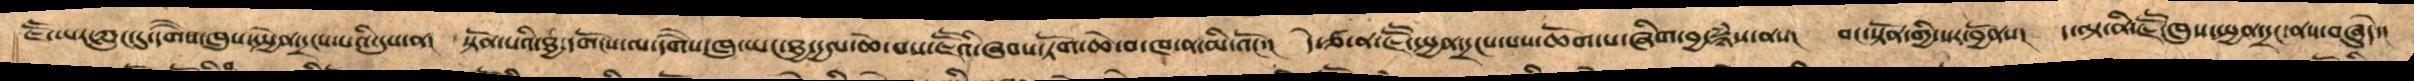ཇཽ་ཡར་ཀླུང་དུ་དགཻས་ཁུས་སྤྱེན་དྲངས་པའི་དུས་ན། སྟོན་པའི་ཐྱ་དགོངས་ལ་དགཻས་ཁུ་ཡང་ཐྱ་དྱལ་ཆེ་བས་ཇཽའི་ཞབས་ཏོག་ཆེ་བ་ཁ་ན་མི་འོང་།   དེ་ཙ་ན་ཇཽ་སྤྱན་དྲངས་པས་ཆོག་པ་ཞིག་བྱ་སྙཾས་ནས།   བང་སྟོན་གྱི་སར་བྱོནས།    ད་ལྟ་ནི་ཇཽ་ཁུས་སྤྱན་དྲངས་ནས་བཞུདེ་།
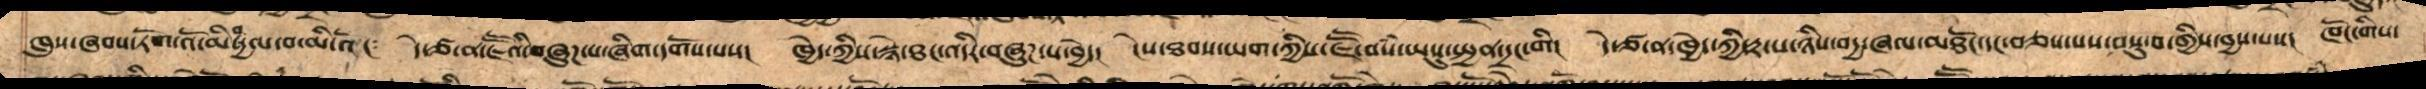ཁུས་ཞབས་ཏོག་འོ་མིན་དྱལ་བ་མི་འོང་  དེ་ཙ་ན་ཇཽའི་བཞུཌ་ས་ཞིག་དགོས་པས། ཁྱེད་ཀྱིས་སྙེ་ཐང་འདིར་བཞུཌ་ས་བྱེད།  ངེས་ཐབས་ཡག་ཀྱིས་ཇཽ་བསཾ་ཡསུ་སྤྱན་དྲང་གི།  དེ་ཙ་ན་ཁྱེད་ཀྱི་རྟ་པ་ཉིས་བདྱ་ཞལ་མཐོང་དང་བཅས་པས་བསུ་བ་གྱིས་བྱས་པས། ཁོང་གིས་
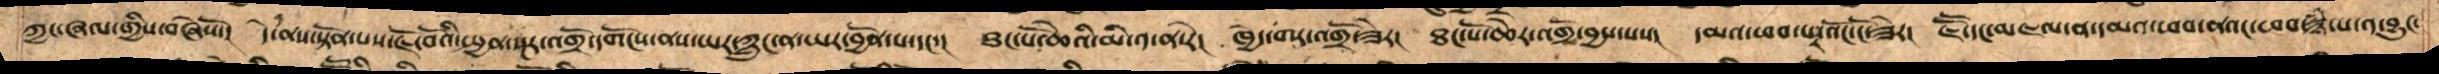ཀྱང་ཞལ་གྱིས་བཞེསོ།  དེ་ནས་སྟོན་པས་ཇོ་བོའི་སྤྱན་སྔར་འགྲོ་དགོངས་ནས་ཡར་ཀླུང་ན་ཡར་བྱོན་པ་དང་། ཐང་པོ་ཆེའི་མི་༡་ན་རེ།  ཁྱེད་གར་འགྲོ་ཟེར། ཐང་པོ་ཆེར་འགྲོ་བྱས་པས། དམའ་ཕབ་པར་འོང་ངོ་ཟེར། ཇཽ་དང་མཇལ་ན་དམའ་ཕབ་ནའང་ཕབ་སྙཾ་པ་༡་བྱུང་
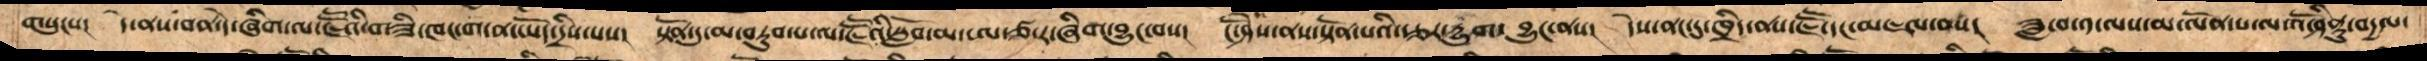གསུངས།   དེ་ནས་བན་དེ་ཞིག་ལ་ཇཽའི་གཟི་ཁང་ག་ན་ཡོད་དྲིས་པས།   སྟོན་དུ་མ་བཏུབ་པ་ལ་ཇཽའི་སློབ་མ་ཨ་ཙ་ར་ཞིག་བྱུང་བས།   ངོ་ཤེས་ནས་སྟོན་པའི་རྩར་དྱུག་བྱུང་ནས།    དེས་ནང་དུ་ཁྲིད་ནས་ཇཽ་དང་མཇལ་བས།   ཟླ་བ་༡་ལས་མ་ལོན་པ་ལ་འོ་ཤིནྟུ་བདྱལ་
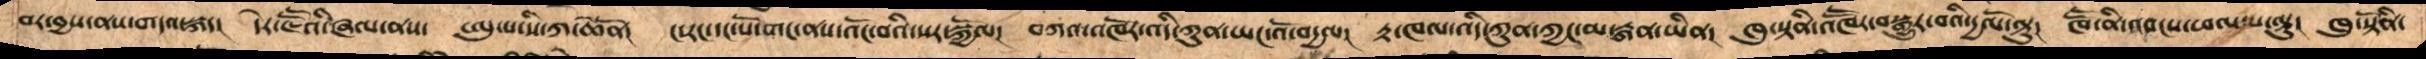བར་བྱས་ནས་གདའ་སྐད།   དེར་ཇཽའི་ཞལ་ནས་   ཨུ་པ་སི་ཀ་ཆེནོ།   ང་རང་དང་པོ་གང་ནས་འོང་བའི་སར་སྐྱོལ།   བཀའ་འཁོར་འདི་ཀུན་ཡང་འོ་བདྱལ།   རྟ་ཁལ་འདི་ཀུན་ཀྱང་མ་རྐན་ཡིན།   ཁུ་སྟནི་འཁཽར་བསྒྱུར་བའི་དྱལོ་ལྟུ། ཁཽ་ནི་འབངས་ཕལ་པ་ལྟུ།  ཁུ་སྟོནི་
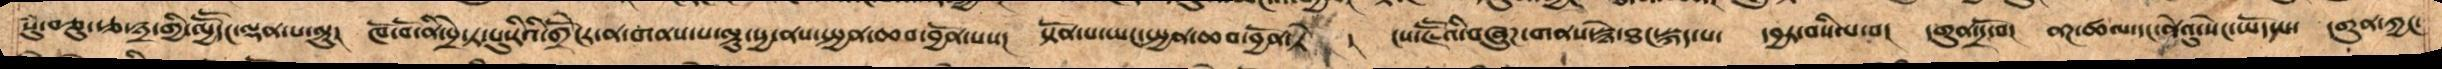སུཾ་བཅུ་རྩ་༣་གྱི་ལྱཽདང་དང་ལྡན་པ་ལྟུ།   ཁོ་བོ་ནི་པྲེ་ཏ་པུ་རིའི་གྲོཻངར་ན་གནས་པ་ལྟུ་སྱ་ནས་སྤྱན་ཆབ་བྱོན་པས།   སྟོན་པ་ཡང་སྤྱན་ཆབ་བྱོན་ཏེ།   ངས་ཇཽའི་བཞུཌ་གནས་སྙེ་ཐང་སྐད་པ་   དབྱར་བསིལ་བ།  དགུན་དྲོ་བོ།   ནཌ་ཚལ་དང་ནེའུ་སེང་ཡོད་པ་  དགུན་ཀྱང་
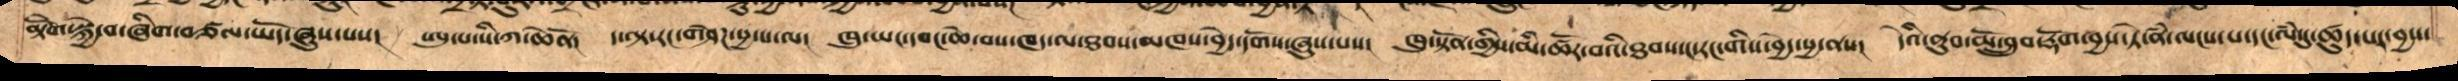མྟོཻག་སྐྱེ་བ་ཞིག་བཙལ་ཡོད་ཞུས་པས།   ཨུ་པ་སི་ཀ་ཆེནོ།   ད་ལྟ་རང་གཤེཌ་སྱ་པ་ལ།  ཁུ་ཡང་དབང་ཆེ་བས་ཁད་ལ་ཐབས་མཁས་བྱེད་དགོས་ཞུས་པས།   ཁུ་སྟོན་གྱིས་མི་ཚོར་བའི་ཐབས་ང་རང་གིས་བྱེད་སྱ་ནས།   དེའི་ནུབ་མོ་བྲུབ་རྡོག་བྱས་ཏེ་ནཾ་ལངས་པ་དང་ལཾ་དུ་ཚུད་པར་བྱས་
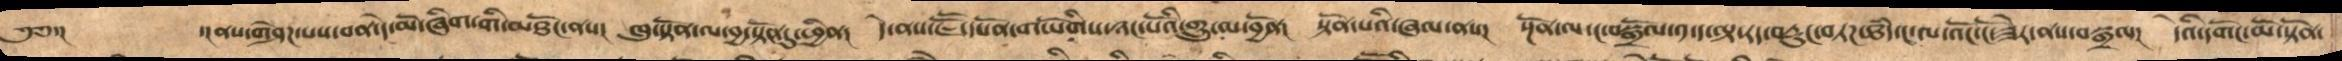༄༅་།     ་།ནས་གཤེཌ་པས་བན་དེ་མོ་ཞིག་གི་མཐོང་ནས།  ཁུ་སྟོན་ལ་བྱ་སྟོན་དུ་ཕྱིན།   དེ་ནས་ཇཽ་དཔོན་གཡོགིས་ཉང་པོའི་གྲུ་ལ་བྱོན། སྟོན་པའི་ཞལ་ནས།  སྔོན་ལ་ང་བསྒྲོལ་༡་ད་ལྟ་རད་བརྡུང་གཏཌ་ཐཾད་ང་ལ་འོང་ངོ་ཟེར་ནས་བསྒྲལ།   དེའི་དགོང་མོ་སྟོན་
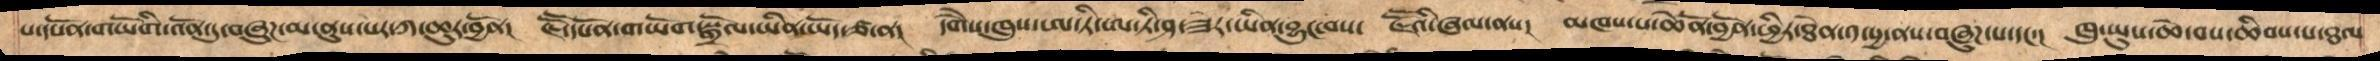པ་དཔོན་གཡོགི་འོན་དུ་བཞུཌ་མ་ནུས་པར་ཀ་ཆུར་བྱོན།  ཇཽ་དཔོན་གཡོག་སྒྲོལ་ཡིན་ཡོད་ཙ་ན།   དགཻས་ཁུས་ཨ་ཏི་ཨ་ཏི་ཤ་ཟེར་ཡིན་་བྱུང་བས།   ཇཽའི་ཞལ་ནས།   མཁས་པ་ཆེནོ་བྱོན་ཕྱིར་ཐེན་༡་སྱ་ནས་བཞུཌ་པ་དང་།    ཁུ་ཡུས་ཆེ་བས་ཆིབས་པ་ཐལ
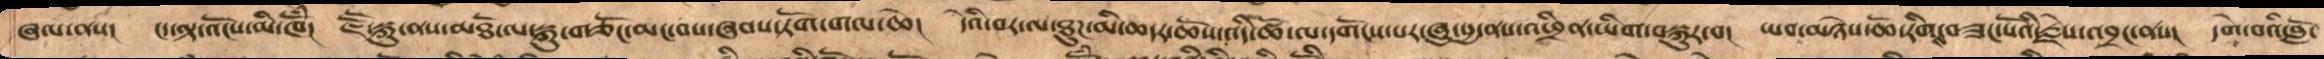ཞལ་ནས།   ངད་ལྟ་འོངས་མི་ཁོཾ།  ཇཽ་སྐུ་ནས་མཐོ་ལ་སྐུ་གཅོང་མང་བས་ཞབས་ཏོག་གལ་ཆེ།   དེའི་བར་ལ་ཐུཌ་མི་ཆདར་ཆོས་འདི་ཚོ་ལ་དགོངས་པར་ཞུ་སྱ་ནས་འཕྲིན་ཡིག་བསྐུར་བ།   ཡབ་མཉེས་ཆོ་རིགས་བཟང་པོའི་རྗེས་འབྲང་ནས།   དགེ་བའི་བློ་
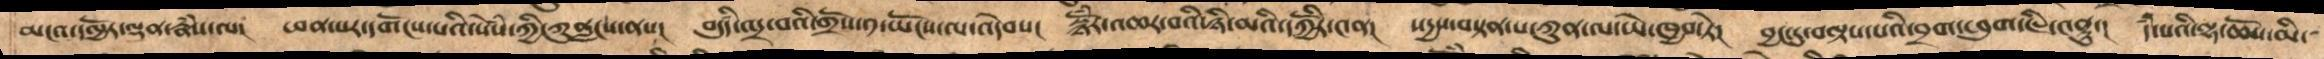མངའ་དལྱོར་ལྡན་རྣཾས་ལ།   ཕན་པར་དགོངས་པའི་སེཾས་ཀྱི་ཀུནླངས་ནས།   བདུདརྩི་འདྲ་བའི་གྲོས་༡་ཡོངས་ལ་འདེབས།   སྙོཾར་འཆར་བའི་ཉི་མའི་དཀྱོིར་༤ན།   སདྱས་བསྟན་པ་ཀུན་ལ་ཡེ་ཁྱབ་ཏེ།   བྱང་དུ་བལྟས་པའི་བྲག་ཕུག་ཇི་༤ནྟུ།   དཾ་པའི་ལྷ་ཆོས་མི་
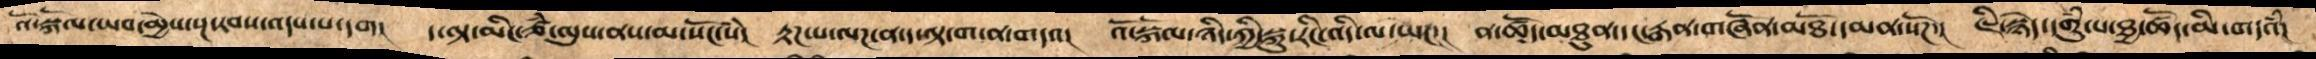འོ་སྐོལ་ཡབ་མྱེས་སྔ་རབས་འདས་པ་དག།  ད་ལྟ་མིང་ཙཾ་ལུས་ནས་མ་སོང་ངཾ།  རྟཌ་པ་ལཌ་ན་ད་ལྟ་ག་ན་གདའ།  འོ་སྐོལ་ཉིད་ཀྱི་སྐུ་རིང་འདི་ལ་ཡང་།  ན་ཚོད་མཐུན་དང་རྒན་གཞོན་མཐོ་དམན་སོཌ་།  ཇི་སྙེད་གུཾ་པ་ཐྱ་ཚོད་མི་གདའཾ།
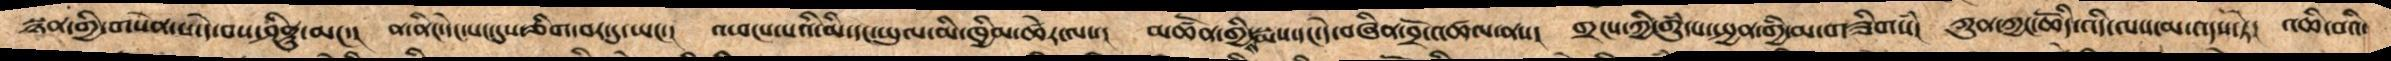སྙན་གྱི་གསེན་པ་དེ་བས་ཤིནུ་མང་།   ན་ནིང་དེང་སང་དུས་གཅིག་བར་དུ་ཡང་།   འཕངས་པའི་མི་དང་ཡུལ་མི་ཁྱིམ་ཚེར་ལས།   མཚོན་གྱིས་རྨས་དང་དེ་བཞིན་བྲོ་འཚལ་ནས།   གྲངས་ཀྱི་གུཾ་པ་སྤྱན་གྱི་མ་གཟིགསཾ།   ཀུན་ཀྱང་ཆོིད་འདི་ལས་མ་འདས་ཏེ།   འཆི་བའི་
